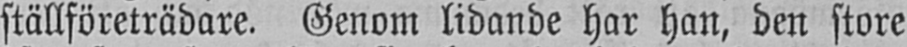ställföreträdare. Genom lidande har han, den store
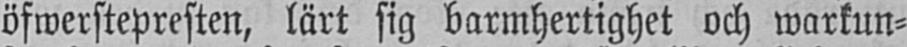öfwerstepresten, lärt sig barmhertighet och warkun-
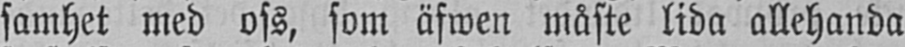samhet med oss, som äfwen måste lida allehanda
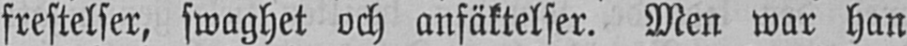frestelser, swaghet och anfäktelser. Men war han
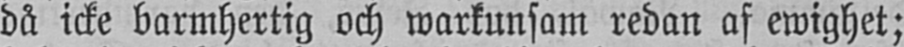då icke barmhertig och warkunsam redan af ewighet;
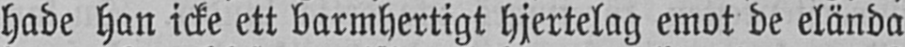hade han icke ett barmhertigt hjertelag emot de elända
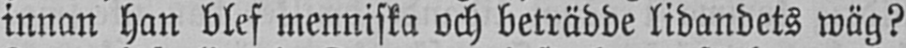innan han blef menniska och beträdde lidandets wäg?
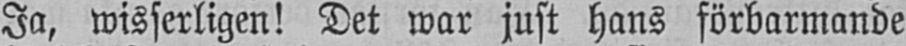Ja, wisserligen! Det war just hans förbarmande
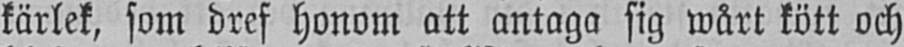kärlek, som dref honom att antaga sig wårt kött och
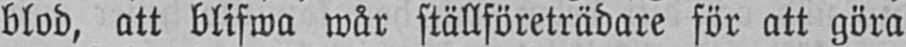blod, att blifwa wår ställföreträdare för att göra
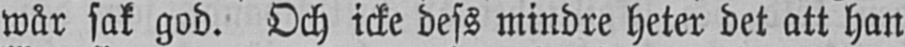wår sak god. Och icke dess mindre heter det att han
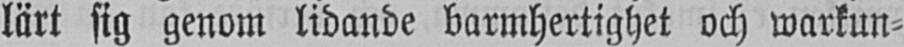lärt sig genom lidande barmhertighet och warkun-
